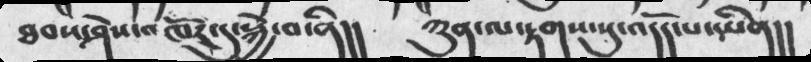ཐབས་ཤེས་འཁོར་དུ་སྐྱེ་བ་ནི།།  ཀུན་ལ་རྟགས་སུ་འདོད་པ་ཡིན།།
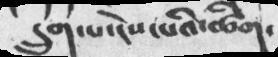དྲུག་པ་ངེས་པའི་ཚིག་
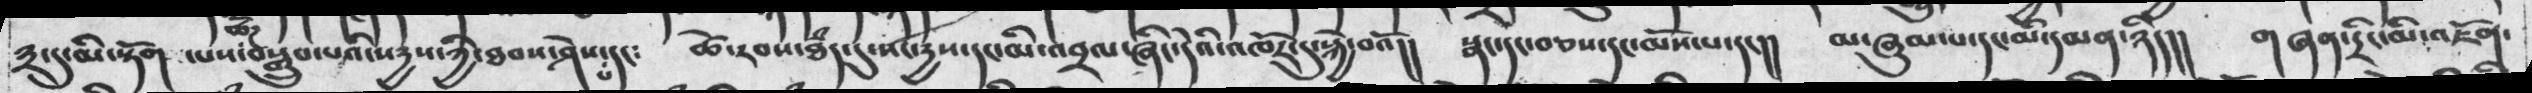༣་དུ་མི་སྟོག ་པས་ཚོཌ་བསྒྲུབ་པའི་སདྱས་ཀྱི་ཐབས་ཤེས་པ་དང༴   ཚེ་རབས་ཐཾད་དུ་སང་དྱས་དང་མི་འབྲལ་ཞིང་དེའི་འཁོར་དུ་སྐྱེ་བའོ།།  སྣང་དང་བཅས་དང་མོས་པ་དང།  མ་ཞུམ་པ་དང་མི་དམན་ཉིད།། གཞན་དྲིང་མི་འཇོག་
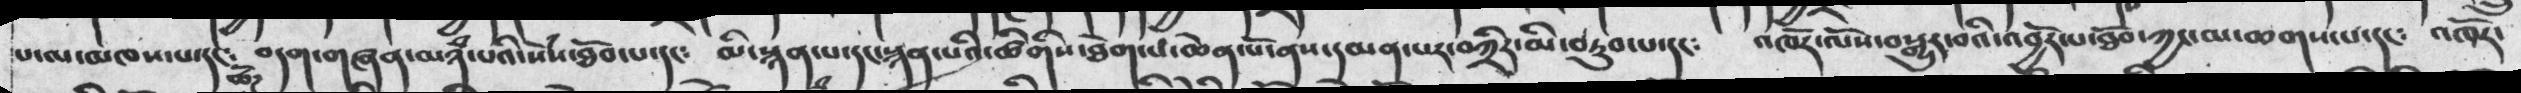པ་ལ་མཁས་པ་དང༴ཚོཌ་བདག་གཞན་མཉཾ་པའི་སེཾས་ཐོབ་པ་དང༴   མི་སྙན་པ་དང་སྙན་པའི་ཚིགིས་ཐེག་པ་ཆེན་པོ་ནས་དམན་པར་བཀྲིར་མི་བཏུབ་པ་དང༴   འཁོར་ལོས་བསྒྱུར་བའི་འབྱོར་པ་ཐོབ་ཀྱང་མ་ཆགས་པ་དང༴  འཁོར་
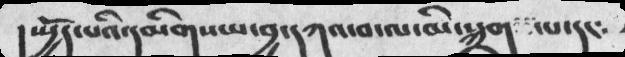། སྤྱོད་པའི་དམིགས་པ་བྱ་དཀའ་བ་ལ་མི་སྐྲག་ པ་དང༴
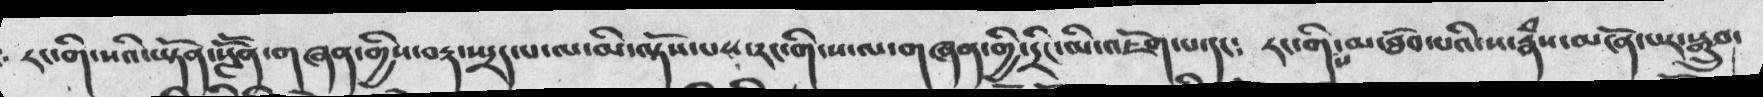རང་གི་སའི་ཡྟོན་སློོན་གཞན་གྱིས་བརྡ་སྤྲད་པ་ལ་མི་ལྟོས་པར་རང་གི་ས་ལ་གཞན་གྱི་དྲིང་མི་འཇོག་པ་དང༴   རང་གིས་མ་ཐོབ་པའི་ས་རྣཾས་མངོན་པར་སྒྲུབ་
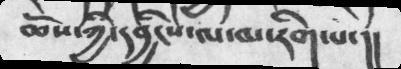ཆོས་ཀྱི་དབྱིངས་ལ་མ་རིག་པ་།།
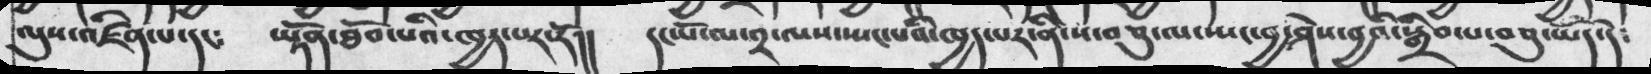ལུས་འཛིན་པ་དང༴  ཡྟོན་ཐོབ་པའི་ཁྱད་པར་རོ།།  དང་པོ་ལ་༢་ལས་ཡང་པའི་ཁྱད་པར་ནི་ས་བཅུ་ལ་ཡང་བྱ་ཤེས་བྱའི་སྒྲིབ་པ་བཅུ་ཡོད་དེ༴
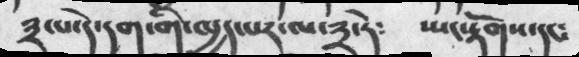༢་པ་དེ་དག་གི་ཁྱད་པར་ལ་༣་ཏེ༴  སྤང་རྟོགས་དང༴
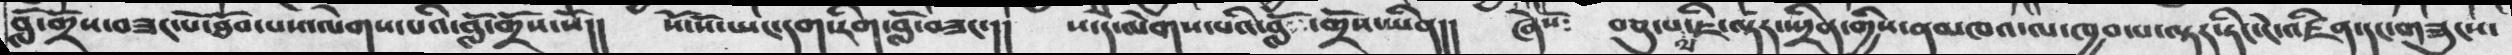བློ་གྲོས་བཟང་པོ་ཐོབ་པ་ལེགས་པའི་བློ་གྲོས་སོ།།   སོ་སོ་ཡང་དག་རིག་བློ་བཟང་།།   ས་དེ་ལེགས་པའི་བློ་གྲོས་ཡིན།།  ཞེསོ༴   བཅུ་པས་ཇི་ལྟར་སྤྲིན་གྱིས་ནམཁའ་ལ་ཁྱབ་པ་ལྟར་ཏིང་ངེ་འཛིན་དང་བཟུངས་
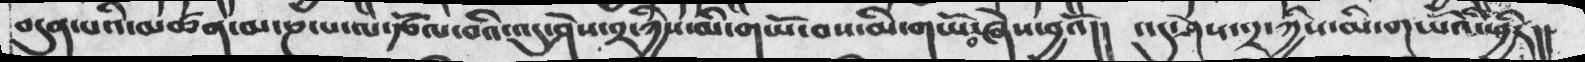བདུན་པའི་མཚན་མ་ཎ་པ་ལ་རྩོལ་བའི་འདུ་ཤེས་༢་ཀྱིས་མི་གཡོ་བས་མི་གཡོ་བ་ཞེས་བྱའོ།།   འདུ་ཤེས་༢་ཀྱིས་མི་གཡོའི་ཕྱིར།།
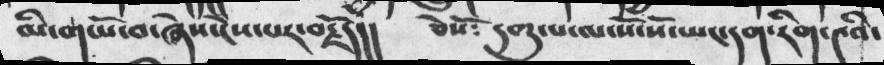མི་གཡོ་བ་ཞེས་ངེས་པར་བརྗོད།།        ཅེས་སོ༴  དགུ་པ་ལ་སོ་སོ་ཡང་དག་རིག་༤འི་
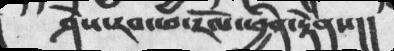ཤེས་རབ་ཕ་རོལ་ཕྱིན་རྟེནས།།
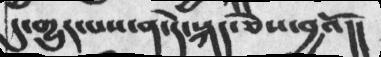དུ་གྱུར་པས་ན་དེ་སྐད་ཅེས་བྱའོ།།
